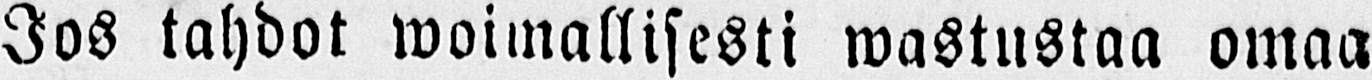Jos tahdot woimallisesti wastustaa omaa
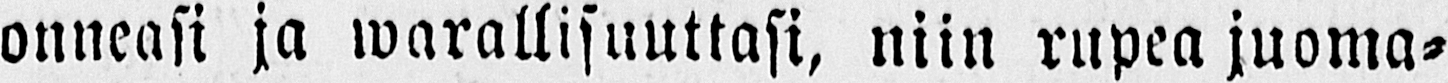onneasi ja warallisuuttasi, niin rupea juoma-
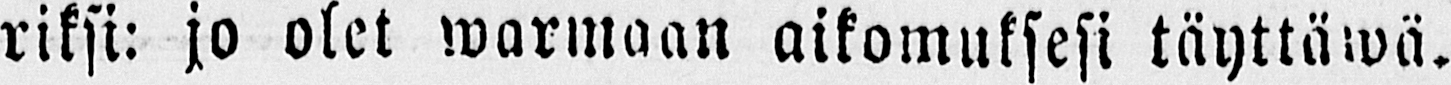riksi: jo olet warmaan aikomuksesi täyttäwä.
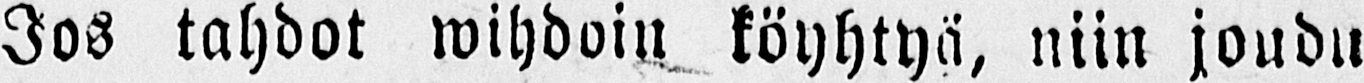Jos tahdot wihdoin, köyhtyä, niin joudu
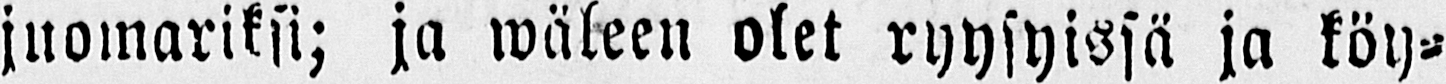juomariksi; ja wäleen olet ryysyissä ja köy-
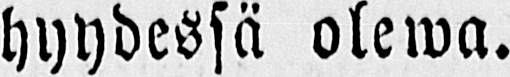hyydessä olewa.
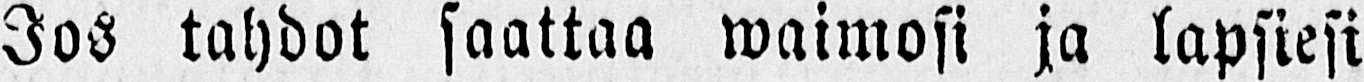Jos tahdot saattaa waimosi ja lapsiesi
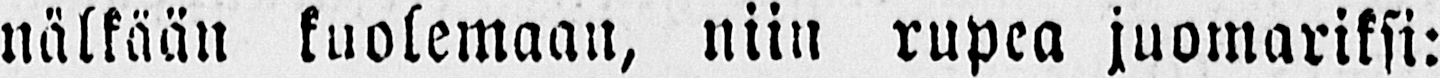nälkään kuolemaan, niin rupea juomariksi:
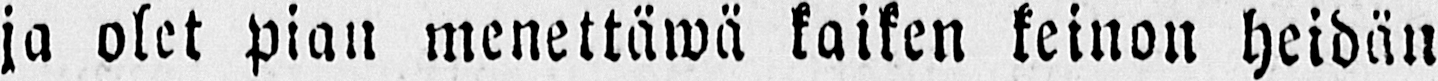ja olet pian menettäwä kaiken keinon heidän
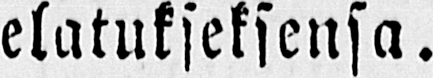elatukseksensa.
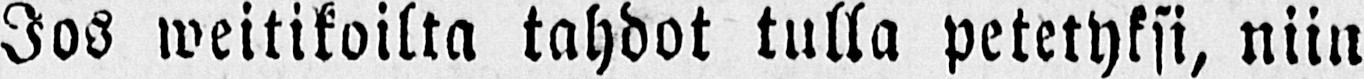Jos weitikoilta tahdot tulla petetyksi, niin
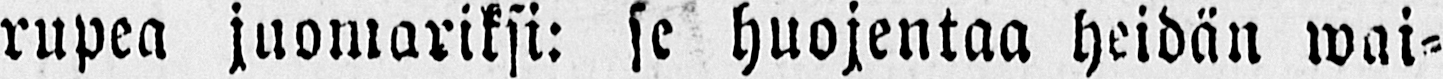rupea juomariksi: se huojentaa heidän wai-
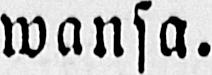wansa.
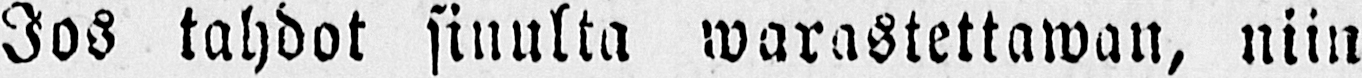Jos tahdot sinulta warasettawan, niin
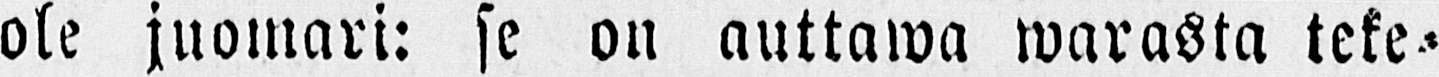ole juomari: se on auttawa warasta teke-
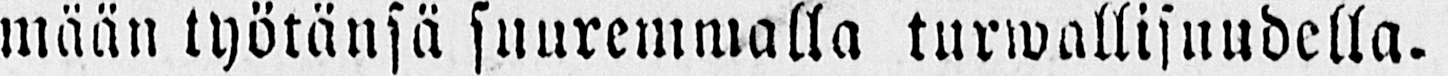mään työtänsä suuremmalla turwallisuudella.
